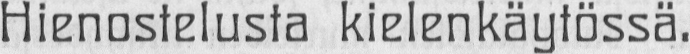Hienostelusta kielenkäytössä.
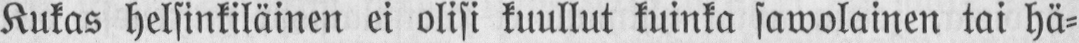Kukas helsinkiläinen ei olisi kuullut kuinka sawolainen tai hä-
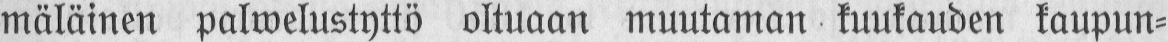mäläinen palwelustyttö oltuaan muutaman kuukauden kaupun-
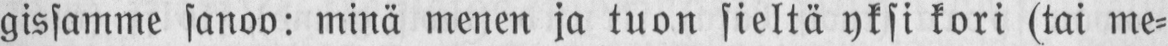gissamme sanoo: minä menen ja tuon sieltä yksi kori (tai me-
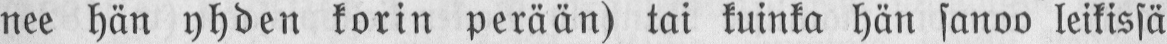nee hän yhden korin perään) tai kuinka hän sanoo leikissä
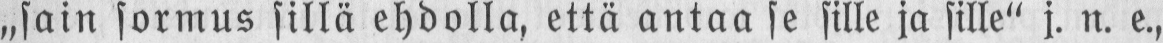„sain sormus sillä ehdolla, että antaa se sille ja sille" j. n. e.,
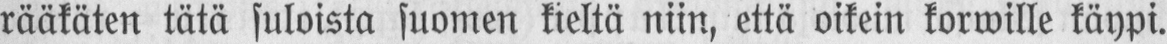rääkäten tätä suloista suomen kieltä niin, että oikein korwille käypi.
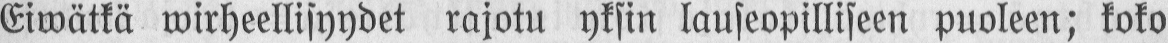Eiwätkä wirheellisyydet rajotu yksin lauseopilliseen puoleen; koko
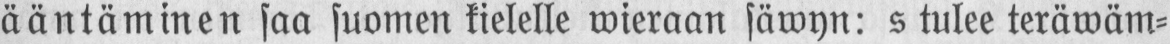ääntäminen saa suomen kielelle wieraan säwyn: s tulee teräwäm-
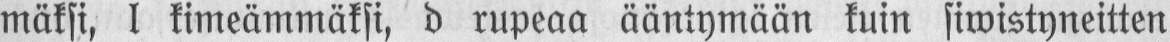mäksi, l kimeämmäksi, d rupeaa ääntymään kuin siwistyneitten
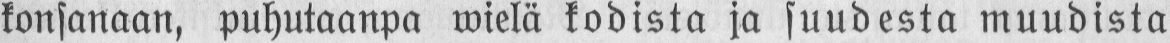konsanaan, puhutaanpa wielä kodista ja suudesta muudista
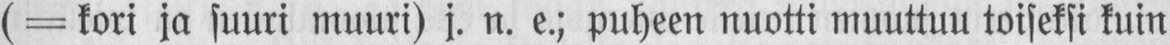(= kori ja suuri muuri) j. n. e.; puheen nuotti muuttuu toiseksi kuin
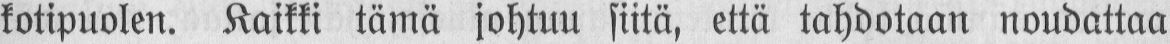kotipuolen. Kaikki tämä johtuu siitä, että tahdotaan noudattaa
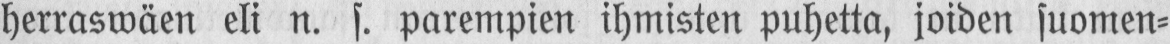herraswäen eli n. s. parempien ihmisten puhetta, joiden suomen-
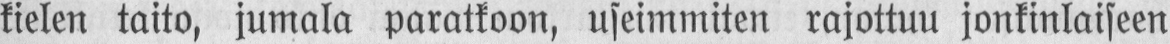kielen taito, jumala paratkoon, useimmiten rajottuu jonkinlaiseen
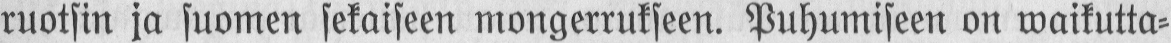ruotsin ja suomen sekaiseen mongerrukseen. Puhumiseen on waikutta-
